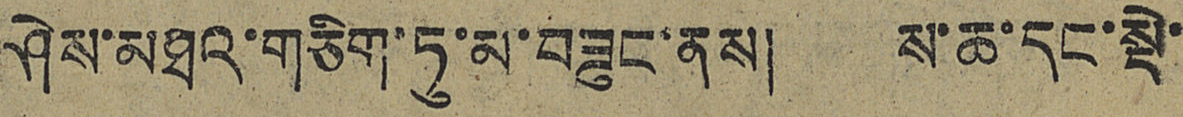ཤེས་མཐའ་གཅིག་ཏུ་མ་བཟུང་ནས་། ས་ཆ་དང་སྡེ་
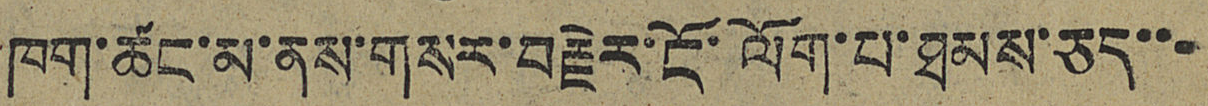ཁག་ཚང་མ་ནས་གསར་བརྗེར་ངོ་ལོག་པ་ཐམས་ཅད་་་
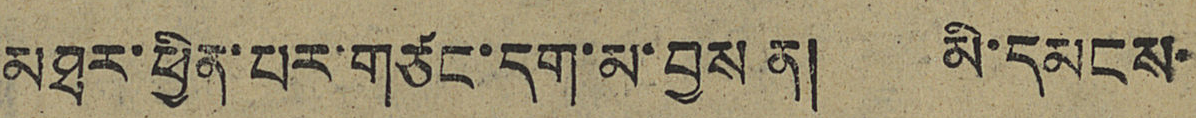མཐར་ཕྱིན་པར་གཙང་དག་མ་བྱས་ན། མི་དམངས་
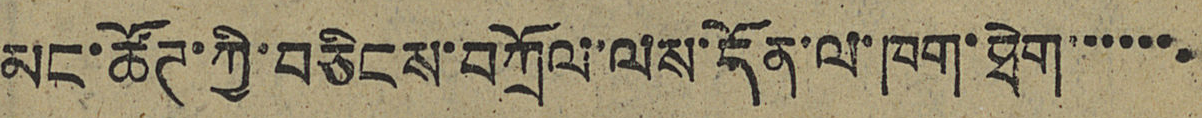མང་ཚོཊ་ཀྱི་བཅིངས་བཀྲོལ་ལས་དོན་ལ་ཁག་ཐེག་་་་་་
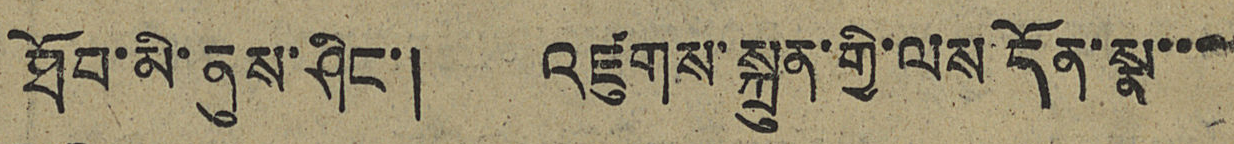ཐོབ་མི་ནུས་ཤིང་། འཛུགས་སྐྲུན་གྱི་ལས་དོན་སྣ་་་
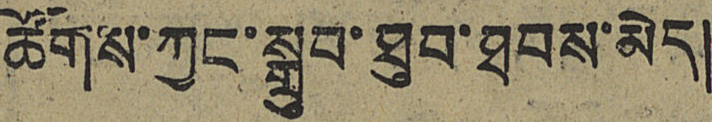ཚོགས་ཀྱང་སྒྲུབ་ཐུབ་ཐབས་མེད།
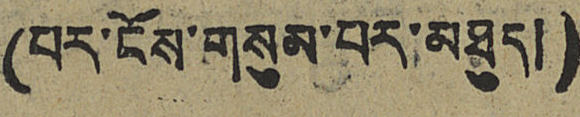(པར་ངོས་གསུམ་པར་མཐུད།)
